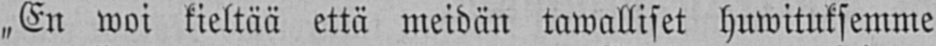„En woi kieltää että meidän tawalliset huwituksemme
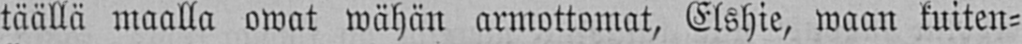täällä maalla owat wähän armottomat, Elshie, waan kuiten-
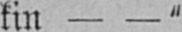kin — —"
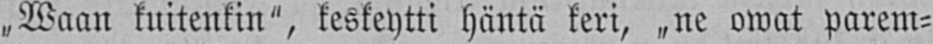„Waan kuitenkin", keskeytti häntä keri, „ne owat parem-
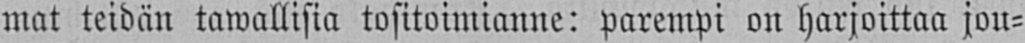mat teidän tawallisia tositoimianne: parempi on harjoittaa jou-
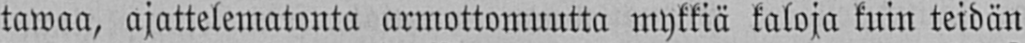tawaa, ajattelematonta armottomuutta mykkiä kaloja kuin teidän
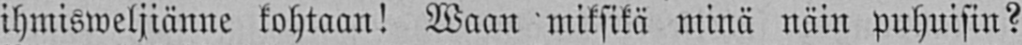ihmisweljiänne kohtaan! Waan miksikä minä näin puhuisin?
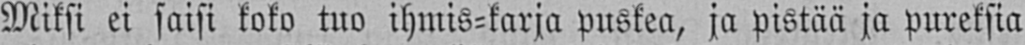Miksi ei saisi koko tuo ihmis-karja puskea, ja pistää ja pureksia
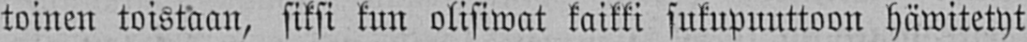toinen toistaan, siksi kun olisiwat kaikki sukupuuttoon häwitetyt
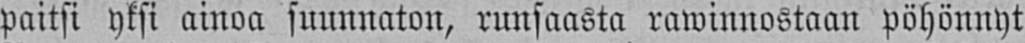paitsi yksi ainoa suunnaton, runsaasta rawinnostaan pöhönnyt
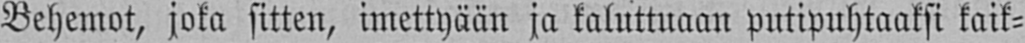Behemot, joka sitten, imettyään ja kaluttuaan putipuhtaaksi kaik-
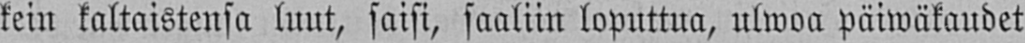kein kaltaistensa luut, saisi, saaliin loputtua, ulwoa päiwäkaudet
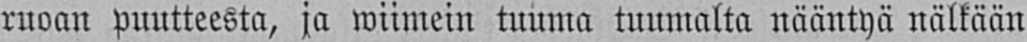ruoan puutteesta, ja wiimein tuuma tuumalta nääntyä nälkään
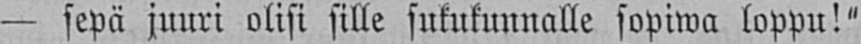— sepä juuri olisi sille sukukunnalle sopiwa loppu!"
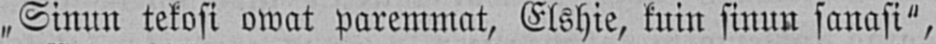„Sinun tekosi owat paremmat, Elshie, kuin sinun sanasi",
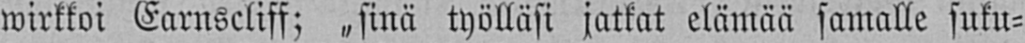wirkkoi Earnscliff; „sinä työlläsi jatkat elämaä samalle suku-
